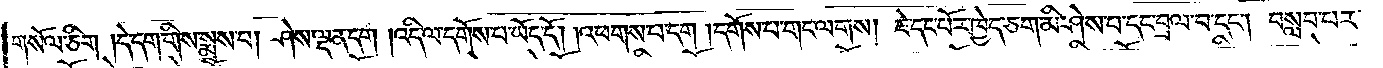གསོལ་ཅིག །དེ་དག་གིས་སྨྲས་པ། ཤེས་ལྡན་དག །འདི་ལ་དགོས་པ་ཡོད་དོ། །འཕགས་པ་དག །དགོས་པ་གང་ལགས།  རྗེདང་པོར་ཁྱེད་ཅག་མི་ཤེས་པ་དང་། བསླབ་པར་
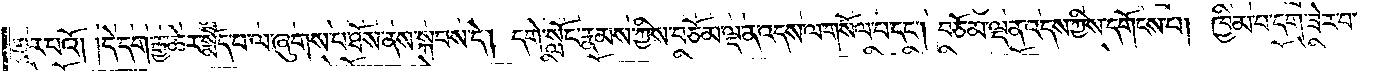གྱུར་པའོ། །དེ་དག་རྒྱ་ཆེར་སྨོད་པ་ལ་ཞུགས་པ་ཐོས་ནས་སྐབས་དེ། དགེ་སློང་རྣམས་ཀྱིས་བཅོམ་ལྡན་འདས་ལ་གསོལ་པ་དང། བཅོམ་ལྡན་འདས་ཀྱིས་དགོངས་པ། ཁྱིམ་བདག་ཟེར་བ་
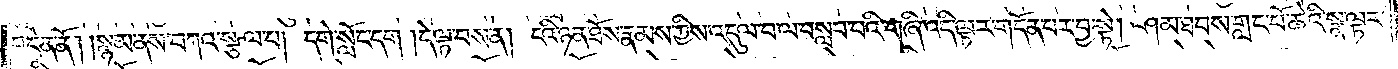བདེན་ནོ༎ །སྙམ་ནས་བཀའ་སྩལ་པ། དགེ་སློང་དག། །དེ་ལྟ་བས་ན། ངའི་ཉན་ཐོས་རྣམས་ཀྱིས་འདུལ་བ་ལ་བསླབ་པའི་གཞི་འདི་ལྟར་གདོན་པར་བྱ་སྟེ། ཤམ་ཐབས་གླང་པོ་ཆེའི་སྣ་ལྟར་
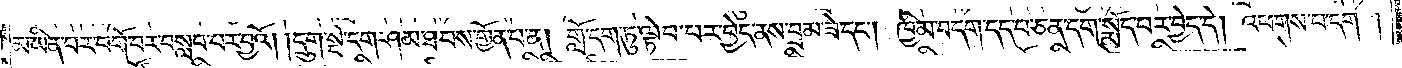མ་ཡིན་པར་བགོ་བར་བསླབ་པར་བྱའོ། །དྲུག་སྡེ་དག་ཤམ་ཐབས་གྱོན་པ་ན། གློ་དག་ཏུ་ལྟེབ་པར་བྱེད་ནས་བྲམ་ཟེ་དང་། ཁྱིམ་བདག་དད་པ་ཅན་དག་སྨོད་པར་བྱེད་དེ། འཕགས་པ་དག །
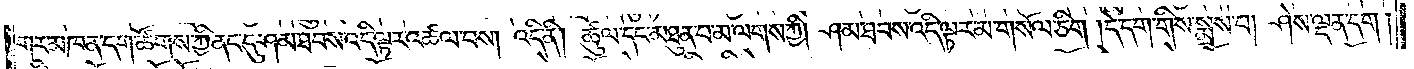གར་མཁན་དག་ཚོགས་ཀྱི་ནང་དུ་ཤམ་ཐབས་འདི་ལྟར་འཚལ་བས། འདི་ནི། ཚུལ་དང་མཐུན་པ་མ་ལགས་ཀྱི། ཤམ་ཐབས་འདི་ལྟར་མ་གསོས་ཅིག །དེ་དག་གིས་སྨྲས་པ། ཤེས་ལྡན་དག ༎
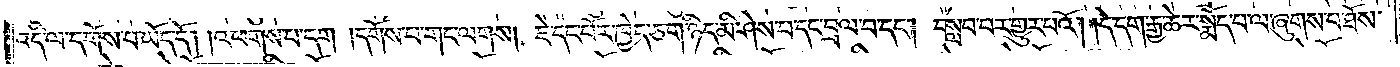འདི་ལ་དགོས་པ་ཡོད་དོ། །འཕགས་པ་དག །དགོས་པ་གང་ལགས། ཇེ་དང་པོར་ཁྱེད་ཅག་ཉིད་མི་ཤེས་པ་དང་བྲལ་བ་དང་། བསླབ་པར་གྱུར་པའོ། །དེ་དག་རྒྱ་ཆེར་སྨོད་པ་ལ་ཞུགས་པ་ཐོས་
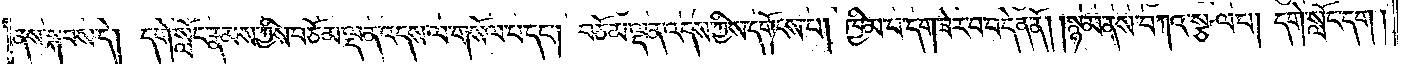ནས་སྐབས་དེ། དགེ་སློང་རྣམས་ཀྱིས་བཅོམ་ལྡན་འདས་ལ་གསོལ་པ་དང་། བཅོམ་ལྡན་འདས་ཀྱིས་དགོངས་པ། ཁྱིམ་པ་དག་ཟེར་བ་བདེན་ནོ། །སྙམ་ནས་བཀའ་སྩལ་པ། དགེ་སློང་དག །
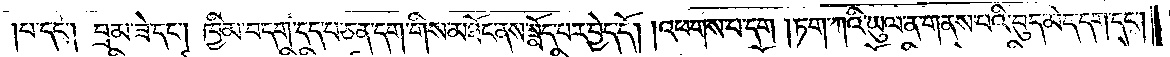པ་དང་། བྲམ་ཟེ་དང་། ཁྱིམ་བདག་དད་པ་ཅན་དག་གིས་མཐོང་ནས་སྨོད་པར་བྱེད་དོ། །འཕགས་པ་དག །ཏག་ཀའི་ཡུལ་ན་གནས་པའི་བུད་མེད་དག་དང་།
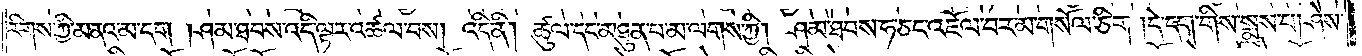རིགས་ཀྱི་མནའ་མ་དག །ཤམ་ཐབས་འདི་ལྟར་འཚལ་བས། འདི་ནི། ཚུལ་དང་མཐུན་པ་མ་ལགས་ཀྱི། ཤམ་ཐབས་ཧ་ཅང་འཇོལ་བར་མ་གསོལ་ཅིག། །དེ་དག་གིས་སྨྲས་པ། ཤེས་
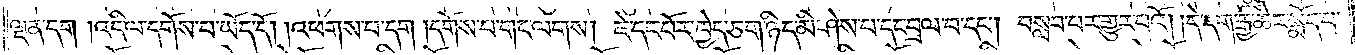ལྡན་དག །འདི་ལ་དགོས་པ་ཡོད་དོ། །འཕགས་པ་དག །དགོས་པ་གང་ལགས། ཇེ་དང་པོར་ཁྱེད་ཅག་ཉིད་མི་ཤེས་པ་དང་བྲལ་བ་དང་། བསླབ་པར་གྱུར་པའོ། །དེ་དག་རྒྱ་ཆེར་སྨོད་པ་
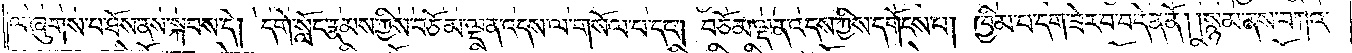ལ་ཞུགས་པ་ཐོས་ནས་སྐབས་དེ། དགེ་སློང་རྣམས་ཀྱིས་བཅོམ་ལྡན་འདས་ལ་གསོལ་པ་དང་། བཅོམ་ལྡན་འདས་ཀྱིས་དགོངས་པ། ཁྱིམ་པ་དག་ཟེར་བ་བདེན་ནོ། །སྙམ་ནས་བཀའ་
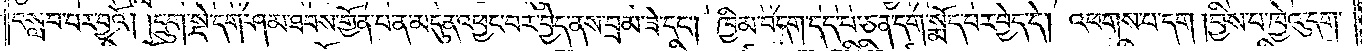བསླབ་པར་བྱའོ། །དྲུག་སྡེ་དག་ཤམ་ཐབས་གྱོན་པ་ན་མདུན་འཕྱང་བར་བྱེད་ནས་བྲམ་ཟེ་དང་། ཁྱིམ་བདག་དད་པ་ཅན་དག་སྨོད་པར་བྱེད་དེ། འཕགས་པ་དག །བྱིས་པ་ཁྱེའུ་དག་
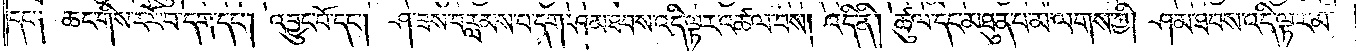དང་། ཆང་གིས་ང་རོ་བ་དང་། འབྱུང་པོ་དང་། ཤ་ཟས་བརླམས་པ་དག་ཤམ་ཐབས་འདི་ལྟར་འཚལ་བས། འདི་ནི། ཚུལ་དང་མཐུན་པ་མ་ལགས་ཀྱི། ཤམ་ཐབས་འདི་ལྟར་མ་
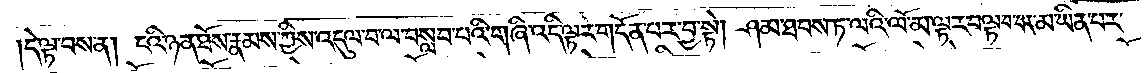དེ་ལྟ་བས་ན། ངའི་ཉན་ཐོས་རྣམས་ཀྱིས་འདུལ་བ་ལ་བསླབ་པའི་གཞི་འདི་ལྟར་གདོན་པར་བྱ་སྟེ། ཤམ་ཐབས་ཏ་ལའི་ལོ་མ་ལྟར་བལྟབ་པར་མ་ཡིན་པར་
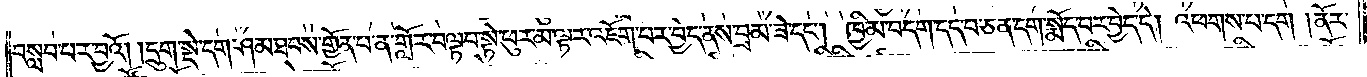བསླབ་པར་བྱའོ། །དྲུག་སྡེ་དག་ཤམ་ཐབས་གྱོན་པ་ན་གློར་བལྟ་བ་སྟེ་ཕུར་མ་ལྟར་འཇོག་པར་བྱེད་ནས་བྲམ་ཟེ་དང༌། ཁྱིམ་བདག་དད་པ་ཅན་དག་སྨོད་པར་བྱེད་དེ། འཕགས་པ་དག །ནོར་
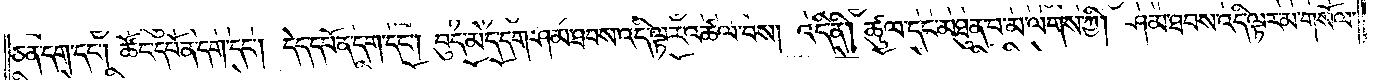ཅན་དག་དང༌། ཚོང་དཔོན་དག་དང༌། དེད་དཔོན་དག་དང༌། བུད་མེད་དག་ཤམ་ཐབས་འདི་ལྟར་འཚལ་བས། འདི་ནི། ཚུལ་དང་མཐུན་པ་མ་ལགས་ཀྱི། ཤམ་ཐབས་འདི་ལྟར་མ་གསོལ་
